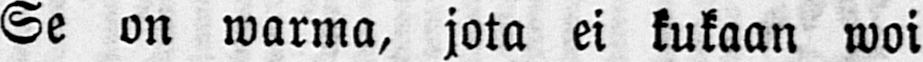Se on warma, jota ei kukaan woi
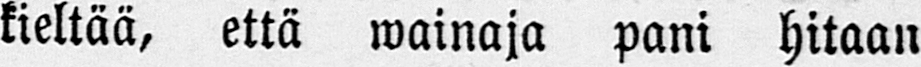kieltää, että wainaja pani hitaan
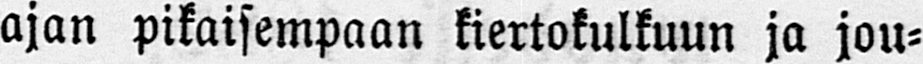ajan pikaisempaan kiertokulkuun ja jou-
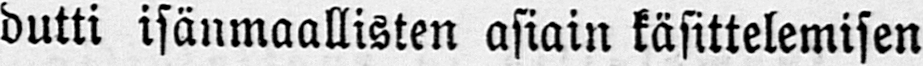dutti isänmaallisten asiain käsittelemisen
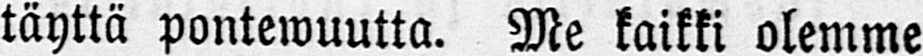täyttä pontewuutta. Me kaikki olemme
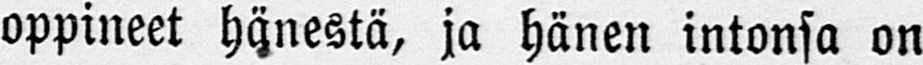oppineet hänestä, ja hänen intonsa on
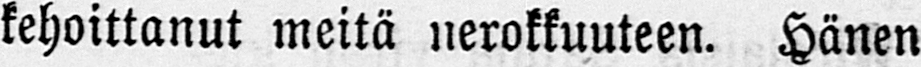kehoittanut meitä nerokkuuteen. Hänen
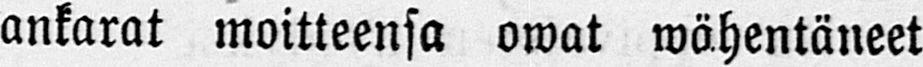ankarat moitteensa owat wähentäneet
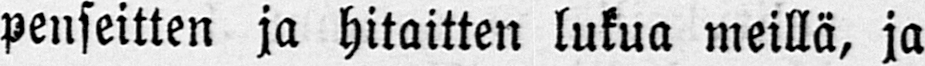penseitten ja hitaitten lukua meillä, ja
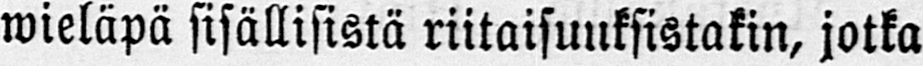wieläpä sisällisistä riitaisuuksistakin, jotka
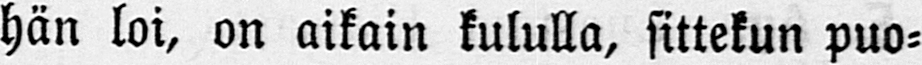hän loi, on aikain kululla, sittekun puo-
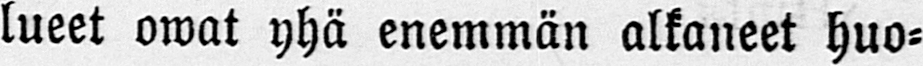lueet owat yhä enemmän alkaneet huo-
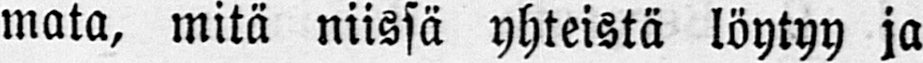mata, mitä niissä yhteistä löytyy ja
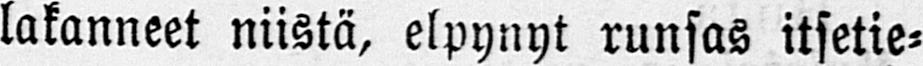lakanneet niistä, elpynyt runsas itsetie-
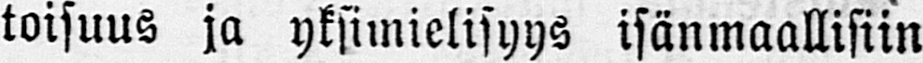toisuus ja yksimielisyys isänmaallisiin
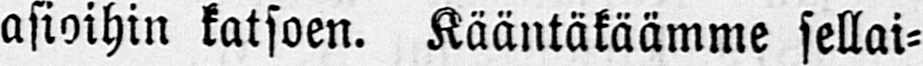asioihin katsoen. Kääntäkäämme sellai-
